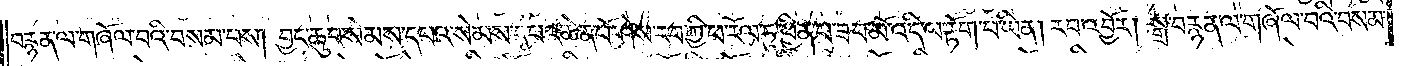བརྙན་ལ་གཞོལ་བའི་བསམ་པས། བྱང་ཆུབ་སེམས་དཔའ་སེམས་དཔའ་ཆེན་པོ་ཤེས་རབ་ཀྱི་ཕ་རོལ་ཏུ་ཕྱིན་པ་ཟབ་མོ་འདི་ལ་རྟོག་པ་ཡིན། རབ་འབྱོར། སྒྲ་བརྙན་ལ་གཞོལ་བའི་བསམ་
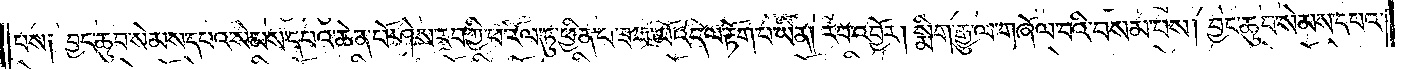པས༑ བྱང་ཆུབ་སེམས་དཔའ་སེམས་དཔའ་ཆེན་པོ་ཤེས་རབ་ཀྱི་ཕ་རོལ་ཏུ་ཕྱིན་པ་ཟབ་མོ་འདི་ལ་རྟོག་པ་ཡིན། རབ་འབྱོར། སྨིག་རྒྱུ་ལ་གཞོལ་བའི་བསམ་པས། བྱང་ཆུབ་སེམས་དཔའ་
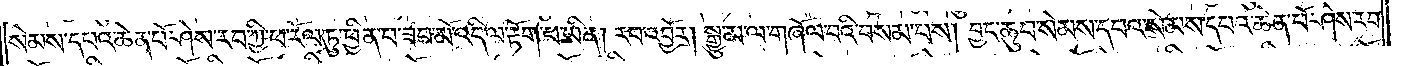སེམས་དཔའ་ཆེན་པོ་ཤེས་རབ་ཀྱི་ཕ་རོལ་ཏུ་ཕྱིན་པ་ཟབ་མོ་འདི་ལ་རྟོག་པ་ཡིན། རབ་འབྱོར། སྒྱུ་མ་ལ་གཞོལ་བའི་བསམ་པས། བྱང་ཆུབ་སེམས་དཔའ་སེམས་དཔའ་ཆེན་པོ་ཤེས་རབ་
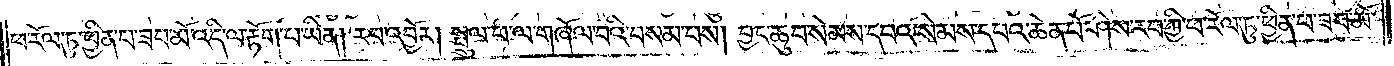ཀྱི་ཕ་རོལ་ཏུ་ཕྱིན་པ་ཟབ་མོ་འདི་ལ་རྟོག་པ་ཡིན། རབ་འབྱོར། སྤྲུལ་པ་ལ་གཞོལ་བའི་བསམ་པས། བྱང་ཆུབ་སེམས་དཔའ་སེམས་དཔའ་ཆེན་པོ་ཤེས་རབ་ཀྱི་ཕ་རོལ་ཏུ་ཕྱིན་པ་ཟབ་མོ་
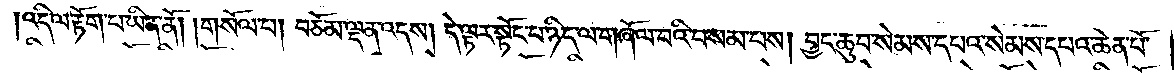འདི་ལ་རྟོག་པ་ཡིན་ནོ། །གསོལ་པ། བཅོམ་ལྡན་འདས། དེ་ལྟར་སྟོང་པ་ཉིད་ལ་གཞོལ་བའི་བསམ་པས། བྱང་ཆུབ་སེམས་དཔའ་སེམས་དཔའ་ཆེན་པོ་
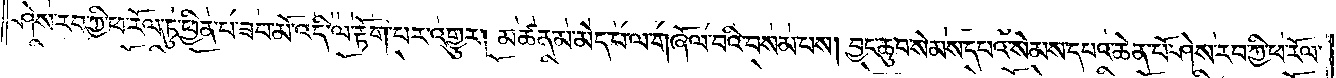ཤེས་རབ་ཀྱི་ཕ་རོལ་ཏུ་ཕྱིན་པ་ཟབ་མོ་འདི་ལ་རྟོག་པར་འགྱུར། མཚན་མ་མེད་པ་ལ་གཞོལ་བའི་བསམ་པས། བྱང་ཆུབ་སེམས་དཔའ་སེམས་དཔའ་ཆེན་པོ་ཤེས་རབ་ཀྱི་ཕ་རོལ་
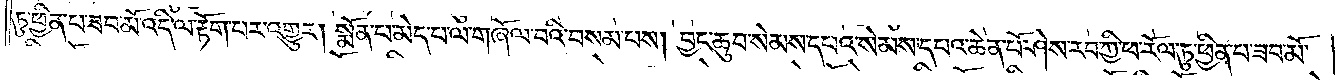ཏུ་ཕྱིན་པ་ཟབ་མོ་འདི་ལ་རྟོག་པར་འགྱུར། སྨོན་པ་མེད་པ་ལ་གཞོལ་བའི་བསམ་པས། བྱང་ཆུབ་སེམས་དཔའ་སེམས་དཔའ་ཆེན་པོ་ཤེས་རབ་ཀྱི་ཕ་རོལ་ཏུ་ཕྱིན་པ་ཟབ་མོ་
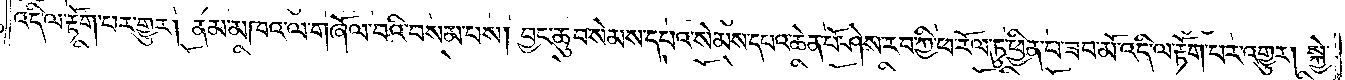འདི་ལ་རྟོག་པར་འགྱུར། ནམ་མཁའ་ལ་གཞོལ་བའི་བསམ་པས། བྱང་ཆུབ་སེམས་དཔའ་སེམས་དཔའ་ཆེན་པོ་ཤེས་རབ་ཀྱི་ཕ་རོལ་ཏུ་ཕྱིན་པ་ཟབ་མོ་འདི་ལ་རྟོག་པར་འགྱུར། སྐྱེ་
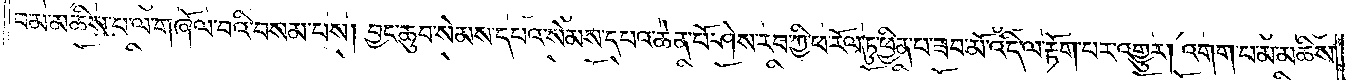བ་མ་མཆིས་པ་ལ་གཞོལ་བའི་བསམ་པས། བྱང་ཆུབ་སེམས་དཔའ་སེམས་དཔའ་ཆེན་པོ་ཤེས་རབ་ཀྱི་ཕ་རོལ་ཏུ་ཕྱིན་པ་ཟབ་མོ་འདི་ལ་རྟོག་པར་འགྱུར། འགག་པ་མ་མཆིས་
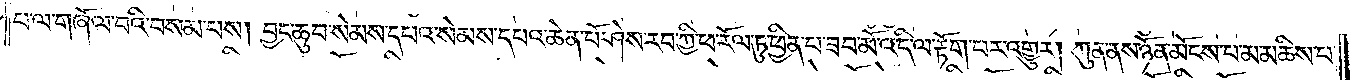པ་ལ་གཞོལ་བའི་བསམ་པས། བྱང་ཆུབ་སེམས་དཔའ་སེམས་དཔའ་ཆེན་པོ་ཤེས་རབ་ཀྱི་ཕ་རོལ་ཏུ་ཕྱིན་པ་ཟབ་མོ་འདི་ལ་རྟོག་པར་འགྱུར། ཀུན་ནས་ཉོན་མོངས་པ་མ་མཆིས་པ་
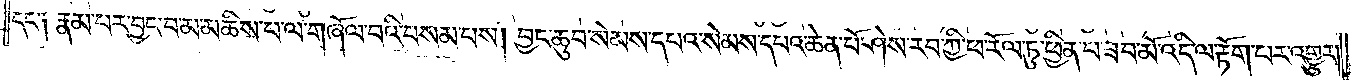དང༌༑ རྣམ་པར་བྱང་བ་མ་མཆིས་པ་ལ་གཞོལ་བའི་བསམ་པས། བྱང་ཆུབ་སེམས་དཔའ་སེམས་དཔའ་ཆེན་པོ་ཤེས་རབ་ཀྱི་ཕ་རོལ་ཏུ་ཕྱིན་པ་ཟབ་མོ་འདི་ལ་རྟོག་པར་འགྱུར།
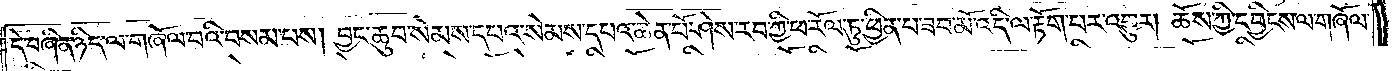དེ་བཞིན་ཉིད་ལ་གཞོལ་བའི་བསམ་པས། བྱང་ཆུབ་སེམས་དཔའ་སེམས་དཔའ་ཆེན་པོ་ཤེས་རབ་ཀྱི་ཕ་རོལ་ཏུ་ཕྱིན་པ་ཟབ་མོ་འདི་ལ་རྟོག་པར་འགྱུར། ཆོས་ཀྱི་དབྱིངས་ལ་གཞོལ་
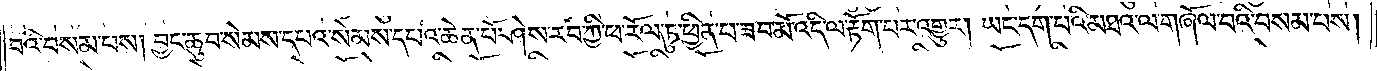བའི་བསམ་པས། བྱང་ཆུབ་སེམས་དཔའ་སེམས་དཔའ་ཆེན་པོ་ཤེས་རབ་ཀྱི་ཕ་རོལ་ཏུ་ཕྱིན་པ་ཟབ་མོ་འདི་ལ་རྟོག་པར་འགྱུར། ཡང་དག་པའི་མཐའ་ལ་གཞོལ་བའི་བསམ་པས།
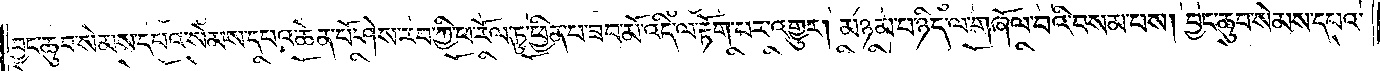བྱང་ཆུབ་སེམས་དཔའ་སེམས་དཔའ་ཆེན་པོ་ཤེས་རབ་ཀྱི་ཕ་རོལ་ཏུ་ཕྱིན་པ་ཟབ་མོ་འདི་ལ་རྟོག་པར་འགྱུར། མཉམ་པ་ཉིད་ལ་གཞོལ་བའི་བསམ་པས། བྱང་ཆུབ་སེམས་དཔའ་
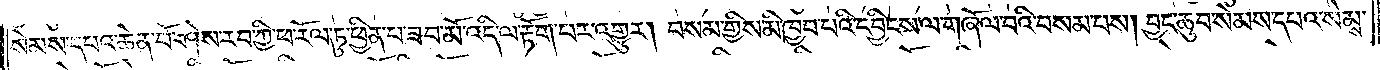སེམས་དཔའ་ཆེན་པོ་ཤེས་རབ་ཀྱི་ཕ་རོལ་ཏུ་ཕྱིན་པ་ཟབ་མོ་འདི་ལ་རྟོག་པར་འགྱུར། བསམ་གྱིས་མི་ཁྱབ་པའི་དབྱིངས་ལ་གཞོལ་བའི་བསམ་པས། བྱང་ཆུབ་སེམས་དཔའ་སེམས་
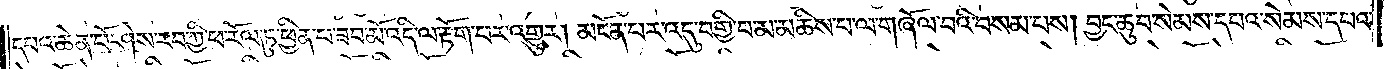དཔའ་ཆེན་པོ་ཤེས་རབ་ཀྱི་ཕ་རོལ་ཏུ་ཕྱིན་པ་ཟབ་མོ་འདི་ལ་རྟོག་པར་འགྱུར། མངོན་པར་འདུ་བགྱི་བ་མ་མཆིས་པ་ལ་གཞོལ་བའི་བསམ་པས། བྱང་ཆུབ་སེམས་དཔའ་སེམས་དཔའ་
